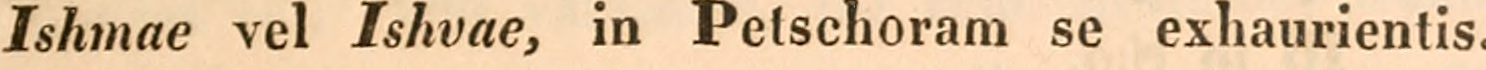Ishmae vel Ishvae, in Petschoram se exhaurientis.
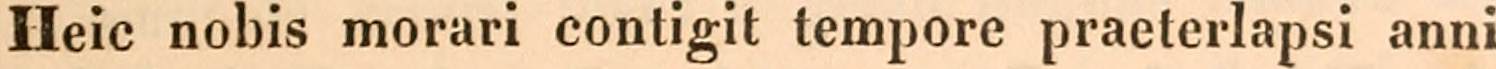Heic nobis morari contigit tempore praeterlapsi anni
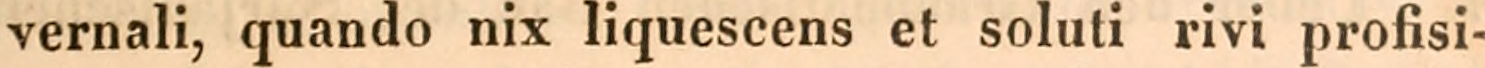vernali, quando nix liquescens et soluti rivi profisi-
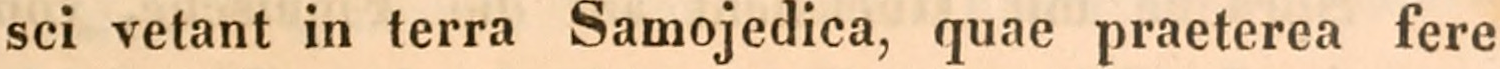sei vetant in terra Samojedica, quae praeterea fere
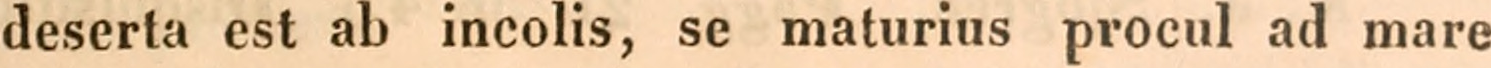deserta est ab incolis, se maturius procul ad mare
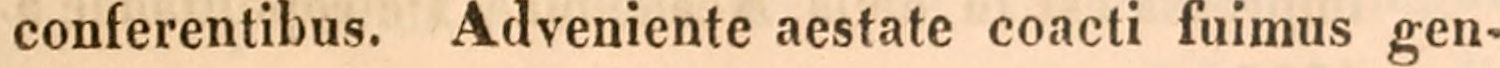conferentibus. Adveniente aestate coacti fuimus gen-
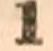1
